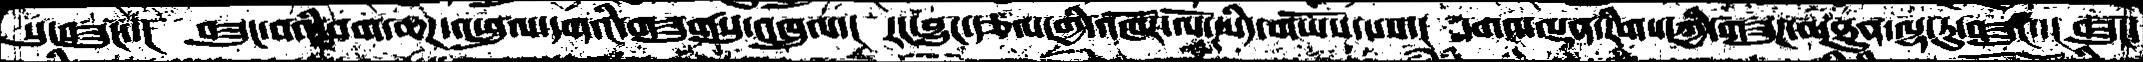སུ་བཟུང་་།  བཟུང་བའི་བག་ཆཌ་འཕྲུལ་དགའི་གཟུགསུ་འཁྲུལ་།  རང་བྱུང་རྩལ་གྱི་འཁོར་ལོ་ཡིད་གཡོས་པས་།  དགའ་ལྡན་རིགས་ཀྱི་གཟུཌ་མཐུན་ལྷ་རུ་བཟུང་་།  བཟུང་
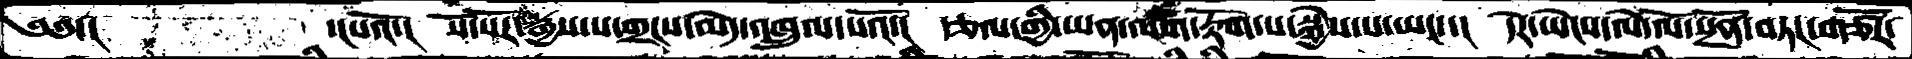༄༅་།        ་།པའོ་།  སོ་སོར་རྒྱས་པ་གྲངས་མེད་འཁྲུལ་པའོ་།  རྩལ་གྱི་ཡན་ལག་རྟོག་པ་སྐྱེས་པ་ཡང་་།  དེར་ཡེངས་ལེ་ལོ་སྔོན་བཏང་གཙོར་
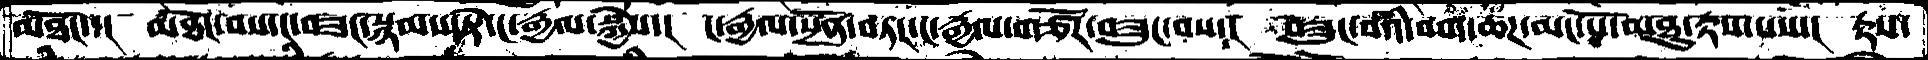མཐོང་་།  མཐོང་བས་ང་བཟང་སྙམས་ཏེ་ང་རྒྱལ་སྐྱེས་།  ང་རྒྱལ་སྔོན་བཏང་ང་རྒྱལ་གཙོར་བཟུང་བས་།  བཟུང་བའི་བག་ཆཌ་མང་པོ་མཐུ་རྟས་པས་།  རྟས་
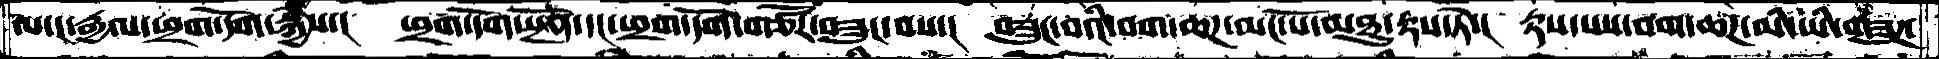ལ་ང་རྒྱལ་ཕྲག་དོག་སྐྱེས་།  ཕྲག་དོག་སྔོན་དང་ཕྲག་དོག་གཙོར་བཟུང་བས་།  བཟུང་བའི་བག་ཆཌ་མང་པོ་མཐུ་རྟས་ཏེ་།  རྟས་པས་བག་ཆཌ་མི་ཡི་གཟུཌ་
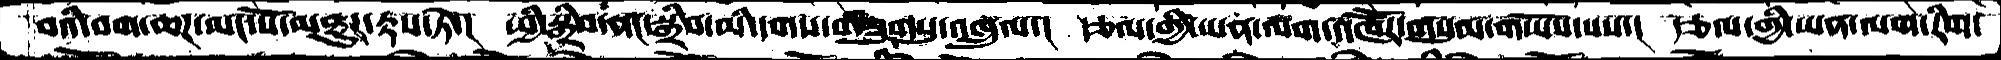བའི་བག་ཆཌ་མང་པོ་མཐུར་རྟས་ཏེ་།  ཕྱི་སྒྲིབ་ནང་སྒྲིབ་མི་དགས་གཟུགསུ་འཁྲུལ་།  རྩལ་གྱི་ཡན་ལག་འཁཽར་གསུམ་གཡོས་པས་།  རྩལ་གྱི་ཡན་ལག་རིག་
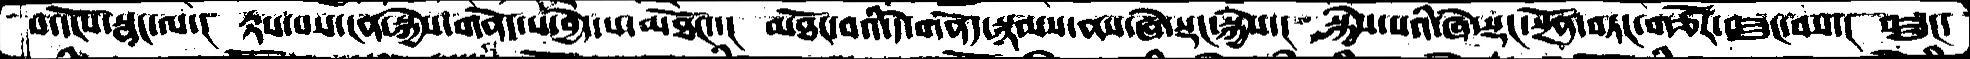བ་དངོས་སྣང་ལ་།  རྟས་པས་ངན་སྐྱེས་གནོད་པ་བྱེད་པ་མཐོང་་།  མཐོང་བའི་དེ་གནོད་སྙམས་ནས་ཞེ་སྡང་སྐྱེས་།  སྐྱེས་པའི་ཞེ་སྡང་སྔོན་བཏང་གཙོར་བཟུང་བས་།  བཟུང་
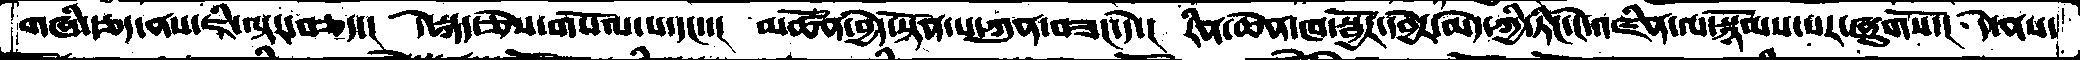གཞི་རྩད་ནས་ཇི་ལྟར་བཅད་།  དེ་སྐད་ཅེས་གསོལ་པ་དང་་།  མཚོན་བྱེད་སྟོན་པ་ཀུན་བཟང་དེ་།  རིན་ཆེན་ཁ་སྦྱོར་དབྱེར་མེད་ཀྱི་ཏིང་ངེ་འཛིན་ལ་སྙོམས་པར་ཞུགསོ་།  དེ་ནས་
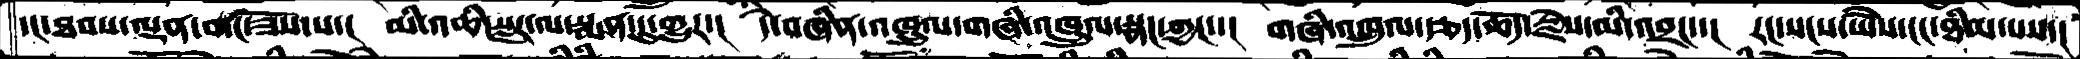དང་ཐབས་ལྡན་གང་ཟོས་པ་།   མི་འཆི་སླར་ལ་སྨན་དུ་གྱུར་།  དེ་བཞིན་འཁྲུལ་གཞི་འཁྲུལ་སྣང་ཀྱང་་།  གཞི་འཁྲུལ་རྩད་ཆོད་རྗེས་མི་འབྲང་་།  རང་སངས་ཡཻས་ངང་ཐིམ་པས་།
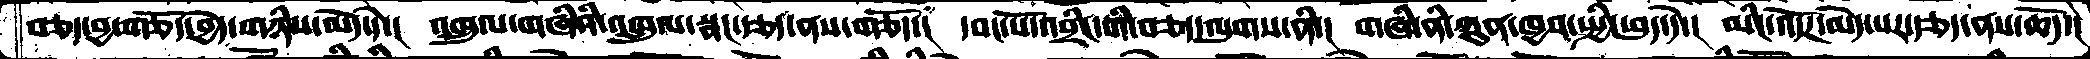བཅད་བྱ་གཅོད་བྱེད་གཉིས་མེད་དེ་།  འཁྲུལ་གཞིའི་འཁྲུལ་སྣང་རྩད་ནས་གཅོད་།  དབང་པོ་འབྲིང་གི་བཅད་ལུགས་ནི་།  གཞི་ནི་ཀུན་ཁྱབ་སྤྱི་ཕུད་དེ་།  མིང་འདོཌ་མེད་པར་རྩད་ནས་ཆོད་།
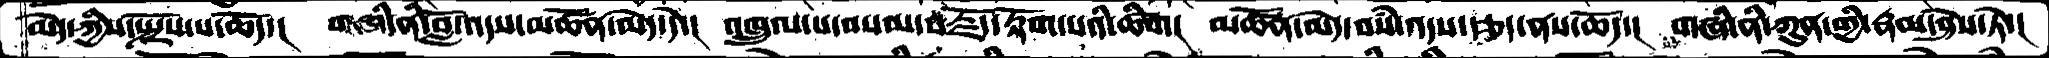མེད་ཀྱིས་སྤྲོས་པ་ཆོད་།  གཞི་ནི་བློ་འདས་མཚོན་མེད་དེ་།  འཁྲུལ་པ་བསམ་བརྗོད་རྟོག་པའི་ཚིག།  མཚོན་མེད་བསཾ་འདས་རྩད་ནས་ཆོད་།  གཞི་ནི་ཀུན་གྱི་རྣམ་ཤེས་ཏེ་།
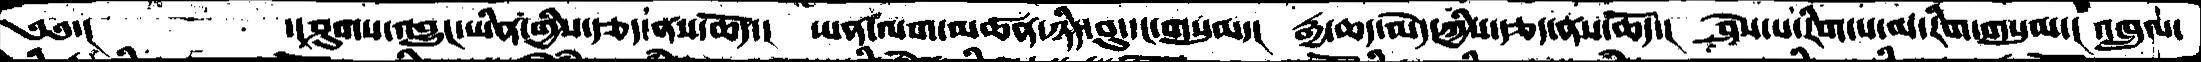༄༅་།    ་།ཤུགས་འབྱུང་ཡིན་གྱིས་རྩད་ནས་ཆོད་།  ཡན་ལག་མཚན་ཉིད་བུ་དང་གསུམ་།  རྒྱ་ཆད་མེད་ཀྱིས་རྩད་ནས་ཆོད་།  ཤེས་པ་རིག་པ་མ་རིག་གསུམ་།  འཁྲུལ་
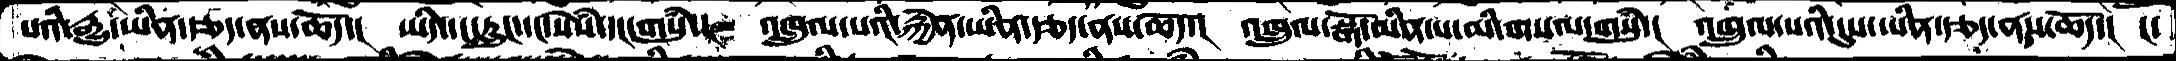པའི་རྒྱུ་ཡིན་རྩད་ནས་ཆོད་།  ཡིད་དང་རླུང་དང་སེཾས་དང་གསུཾ་།  འཁྲུལ་པའི་རྐྱེན་ཡིན་རྩད་ནས་ཆོད་།  འཁྲུལ་སྒོ་མིན་པ་མི་གསལ་གསུཾ་།  འཁྲུལ་པའི་དུས་ཡིན་རྩད་ནས་ཆོད་།  ང་
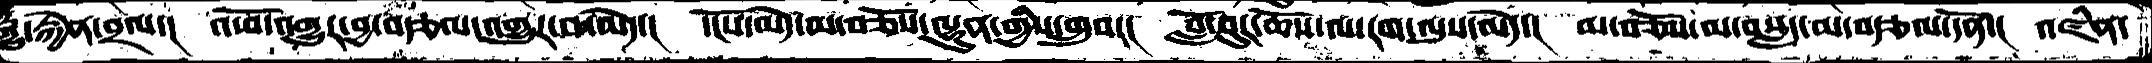རྒྱུ་རྐྱེན་བྲལ་།  འཕོ་འགྱུར་བྱ་བརྩལ་འགྱུར་བ་མེད་།  དངོས་མེད་མ་བཅོས་ལྷུན་གྱིས་གྲུབ་།  བློ་བུར་ཆོས་ལ་རག་ལུས་མེད་།  མ་བཅོས་མ་སླད་མ་བརྩལ་དོན་།  འཛིན་
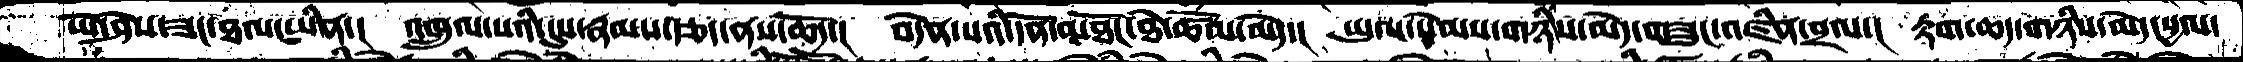ཡེ་ཤེས་ཟང་ཐལ་ཡིན་།  འཁྲུལ་པའི་དུས་རྣམས་རྩད་ནས་ཆོད་།  བདེན་པའི་དོན་མཐོང་ཐེ་ཚོམ་མེད་།  ཡུལ་སེམས་གཉིས་མེད་གཟུང་འཛིན་བྲལ་།  རྟག་ཆད་གཉིས་མེད་སྱལ་
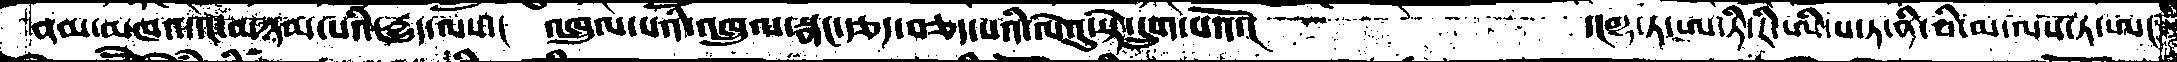ནམ་མཁའ་དང་མཉམ་པའི་རྒྱུད་ལས་།  འཁྲུལ་པའི་འཁྲུལ་སྣང་རྩད་བཅད་པའི་ལེའུ་སྟེ་དྲུག་པའོ་།      ་།གྷ་ཏ་ཨ་ཏི་རི་ཨི་པ་ཏ་ནི་བི་མ་ལས་ཏ་ཨ།
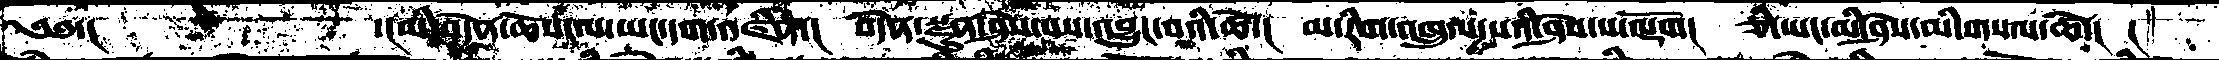༄༅་།         ་།མི་བདེན་ཆོས་ལ་ཡང་དག་འཛིན་།  བདེན་སྫུན་ཤེས་པས་འབྱུང་བའི་ཚེ་།  མ་་རིག་འཁྲུལ་པའི་ཤེས་པ་ལྡོག།  ཅི་ཡང་མི་ཤེས་མི་གསལ་ཚེ་།  །
